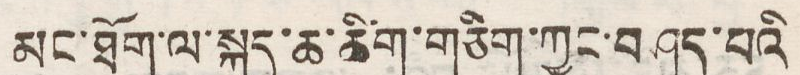མང་ཐོག་ལ་སྐད་ཆ་ཚིག་གཅིག་ཀྱང་བཤད་པའི
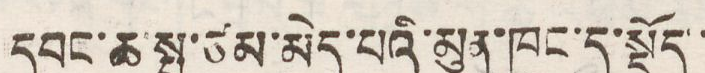དབང་ཆ་སྤུ་ཙམ་མེད་པའི་མུན་ཁུང་དུ་སྡོད་
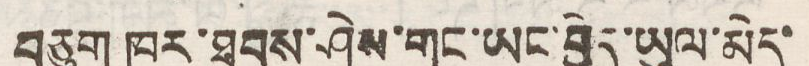བཅུག ཁར་ཐབས་ཤེས་གང་ཡང་བྱེད་ཡུལ་མེད་
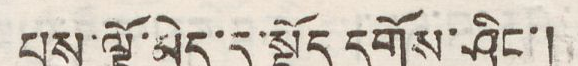པས་ལྟོ་མེད་དུ་སྡོད དགོས་ཤིང་།
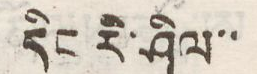དིང རི་ཤིལ་་
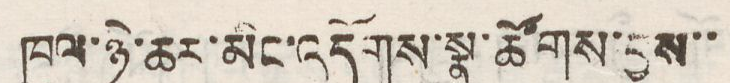ཁུལ་ཉེ་ཆར་མིང་འདོགས་སྣ་ཚོགས་བྱས་་
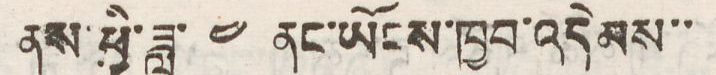ནས་ཕྱི་ཟླ ༤ ནང་ཡོངས་ཁྱབ་འདེབས་་
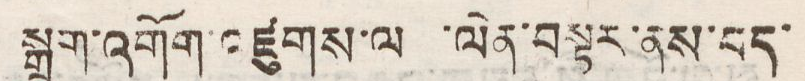སྒྲུབ་འགོག་འཛུགས་ལག་ལེན་བསྟར་ནས་པད་
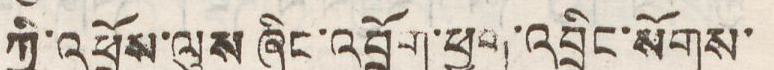ཀྱི་འཕྲོས་ལུས ཞིང་འབྲོག་ཕྱུག་འབྲིང་སོགས་
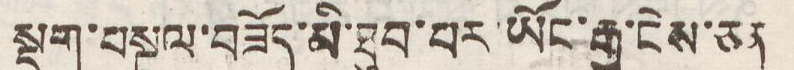སྡུག་བསྔལ་བཟོད་མི་ཐུབ་པར་ཡོང་རྒྱུ་ངེས་ཅན
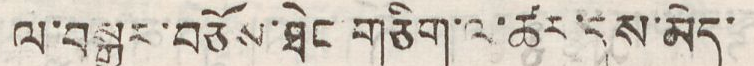ལ་བསྒྱུར་བཅོས་ཐེང་གཅིག་ལ་ཚུར་དུས་མེད་
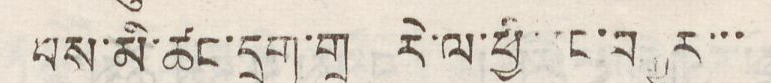པས་མི་ཚང་དྲག་གྲ རེ་ལ་ཕྱི་ ་ང་བསྒྱུར་་་
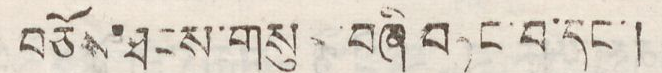བཅོས་ཐངས་གསུམ་བཞི བཏང་བ་དང་།
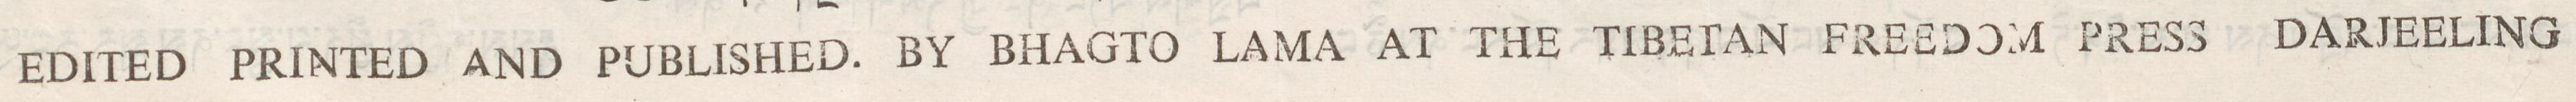EDITED PRINTED AND PUBLISHED BY BHAGTO LAMA AT THE TIBETAN FREEDOM PRESS DARJEELING
